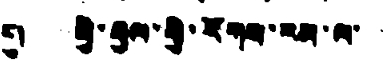དུ། ཕྱི་རྒྱལ་གྱི་རོགས་རམ་ལ་
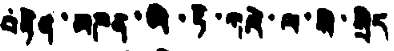བརྟེན་མཁན་ཨེ་ཏི་ཀའེ་ལ་སི་སྲིད
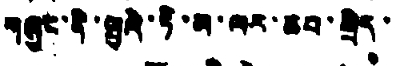གཞུང་ནི་ཝུའེ་ཏི་མ་ལར་ཆབ་སྲིད་
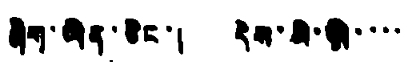ཞིག་ཡིན་ཅིང་། དེས་མི་ཡི་་་་
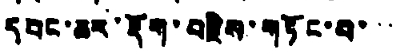དབང་ཆར་རྡོག་བརྗིས་གཏོང་བ་་་
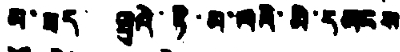མ་ཟད་ ཝུའེ་ཏི་མ་ལའི་མི་དམངས
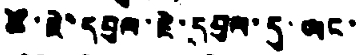ཚོ་ཇེ་དབུལ་ཇེ་དབུལ་དུ་ཡང་
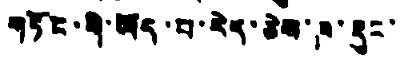གཏོང་གི་ཡོད་པ་རེད་ཅེས་ཁ་རྡུང་
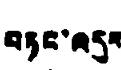བཏང་འདུག
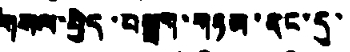གསལ་བྱེད་བསྒྲག་གཏམ་ནང་དུ་
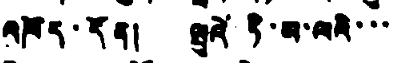འཁོད་དོན། ཝུའེ ཏི་ཨ་ལའི་་་
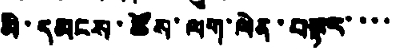མི་དམངས་ཚོས་ལག་ལེན་བསྟར་་་་
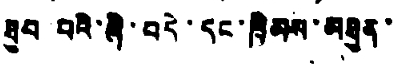ཐུབ པའི་ཞི་བདེ་དང་ཁྲིམས་མཐུན་
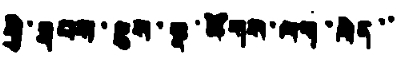གྱི་ཐབས་ཇུས་སྣ་ཚོགས་ལག་ལེན་་
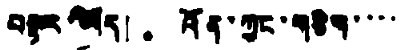བསྟར་ཡོད། འོན་ཀྱང་གཅིག་་་་
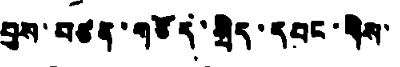བྱས་བཙན་གཅོད་སྲིད་དབང་གིས་
